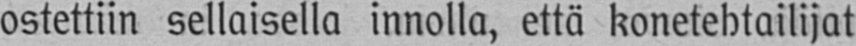ostettiin sellaisella innolla, että konetehtailijat
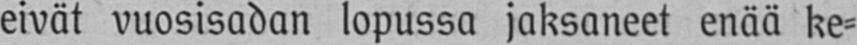eivät vuosisadan lopussa jaksaneet enää ke-
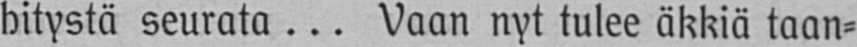hitystä seurata ... Vaan nyt tulee äkkiä taan-
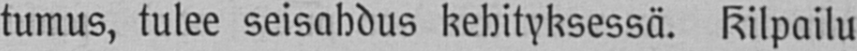tumus, tulee seisahdus kehityksessä. Kilpailu
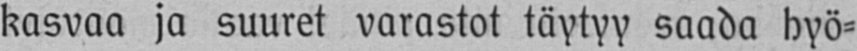kasvaa ja suuret varastot täytyy saada hyö-
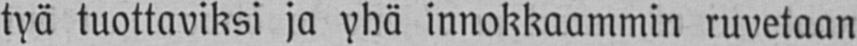tyä tuottaviksi ja yhä innokkaammin ruvetaan
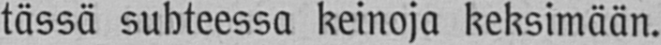tässä suhteessa keinoja keksimään.
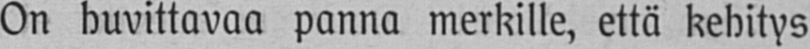On huvittavaa panna merkille, että kehitys
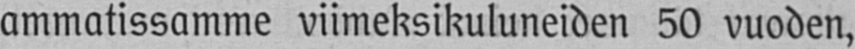ammatissamme viimeksikuluneiden 50 vuoden,
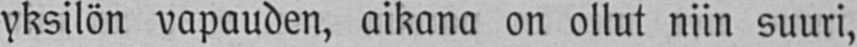yksilön vapauden, aikana on ollut niin suuri,
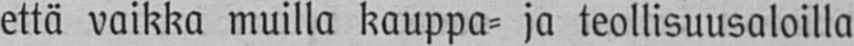että vaikka muilla kauppa- ja teollisuusaloilla
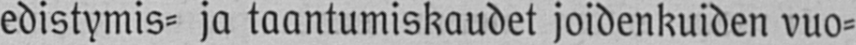edistymis- ja taantumiskaudet joidenkuiden vuo-
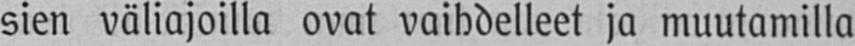sien väliajoilla ovat vaihdelleet ja muutamilla
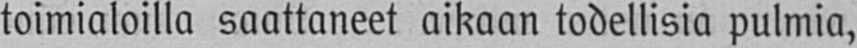toimialoilla saattaneet aikaan todellisia pulmia,
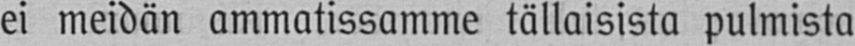ei meidän ammatissamme tällaisista pulmista
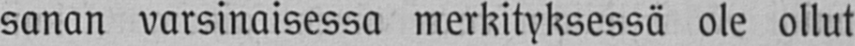sanan varsinaisessa merkityksessä ole ollut
